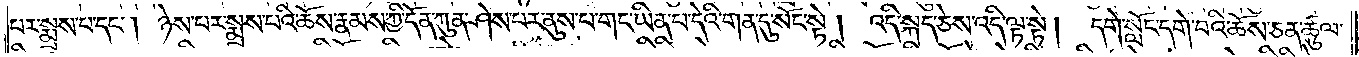པར་སྨྲས་པ་དང༌། ཉེས་པར་སྨྲས་པའི་ཆོས་རྣམས་ཀྱི་དོན་ཀུན་ཤེས་པར་ནུས་པ་གང་ཡིན་པ་དེའི་གན་དུ་སོང་སྟེ། འདི་སྐད་ཅེས་འདི་ལྟ་སྟེ། དགེ་སློང་དགེ་བའི་ཆོས་ཅན་ཚུལ་
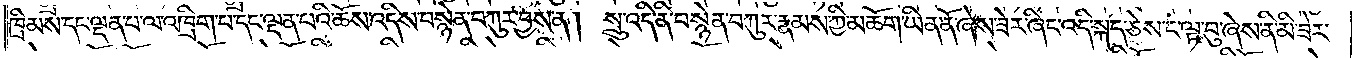ཁྲིམས་དང་ལྡན་པ་ལ་འཁྲིག་པ་དང་ལྡན་པའི་ཆོས་འདིས་བསྙེན་བཀུར་བྱས་ན། སྲུ་འདི་ནི་བསྙེན་བཀུར་རྣམས་ཀྱི་མཆོག་ཡིན་ནོ་ཞེས་ཟེར་ཞིང་འདི་སྐད་ཅེས་ང་ལྟ་བུ་ཞེས་ནི་མི་ཟེར་
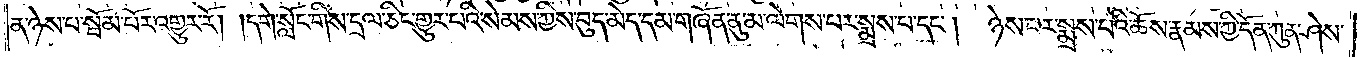ན་ཉེས་པ་སྦོམ་པོར་འགྱུར་རོ། །དགེ་སློང་གིས་དྲལ་ཅིང་གྱུར་པའི་སེམས་ཀྱིས་བུད་མེད་དམ་གཞོན་ནུ་མ་ལེགས་པར་སྨྲས་པ་དང༌།  ཉེས་པར་སྨྲས་པའི་ཆོས་རྣམས་ཀྱི་དོན་ཀུན་ཤེས་
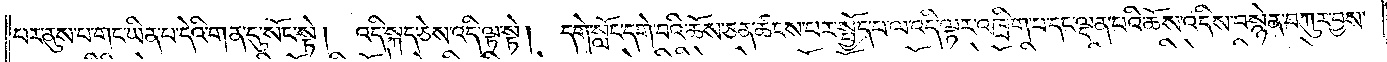པར་ནུས་པ་གང་ཡིན་པ་དེའི་གན་དུ་སོང་སྟེ།  འདི་སྐད་ཅེས་འདི་ལྟ་སྟེ། དགེ་སློང་དགེ་བའི་ཆོས་ཅན་ཚངས་པར་སྤྱོད་པ་ལ་འདི་ལྟར་འཁྲིག་པ་དང་ལྡན་པའི་ཆོས་འདིས་བསྙེན་བཀུར་བྱས་
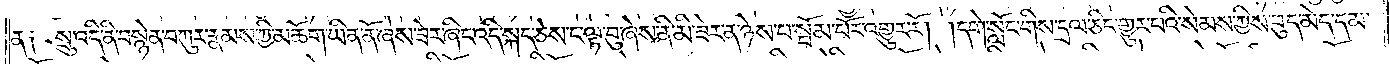ན༑ སྲུ་འདི་ནི་བསྙེན་བཀུར་རྣམས་ཀྱི་མཆོག་ཡིན་ནོ་ཞེས་ཟེར་ཞིང་འདི་སྐད་ཅེས་ང་ལྟ་བུ་ཞེས་ནི་མི་ཟེར་ན་ཉེས་པ་སྦོམ་པོར་འགྱུར་རོ། །དགེ་སློང་གིས་དྲལ་ཅིང་གྱུར་པའི་སེམས་ཀྱིས་བུད་མེད་དམ་
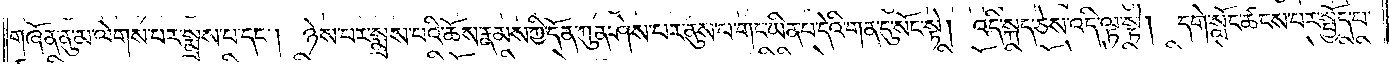གཞོན་ནུ་མ་ལེགས་པར་སྨྲས་པ་དང༌། ཉེས་པར་སྨྲས་པའི་ཆོས་རྣམས་ཀྱི་དོན་ཀུན་ཤེས་པར་ནུས་པ་གང་ཡིན་པ་དེའི་གན་དུ་སོང་སྟེ། འདི་སྐད་ཅེས་འདི་ལྟ་སྟེ། དགེ་སློང་ཚངས་པར་སྤྱོད་པ་
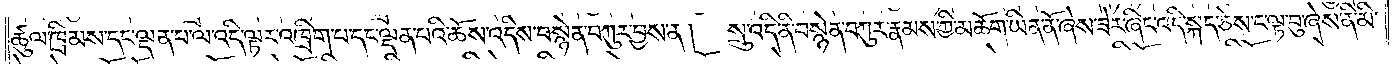ཚུལ་ཁྲིམས་དང་ལྡན་པ་ལ་འདི་ལྟར་འཁྲིག་པ་དང་ལྡན་པའི་ཆོས་འདིས་བསྙེན་བཀུར་བྱས་ན།  སྲུ་འདི་ནི་བསྙེན་བཀུར་རྣམས་ཀྱི་མཆོག་ཡིན་ནོ་ཞེས་ཟེར་ཞིང་འདི་སྐད་ཅེས་ང་ལྟ་བུ་ཞེས་ནི་མི་
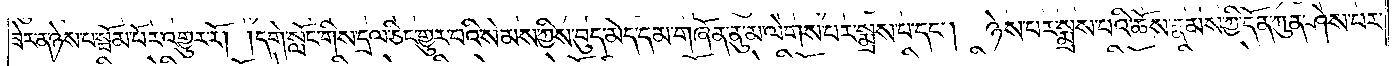ཟེར་ན་ཉེས་པ་སྦོམ་པོར་འགྱུར་རོ། །དགེ་སློང་གིས་དྲལ་ཅིང་གྱུར་པའི་སེམས་ཀྱིས་བུད་མེད་དམ་གཞོན་ནུ་མ་ལེགས་པར་སྨྲས་པ་དང༌། ཉེས་པར་སྨྲས་པའི་ཆོས་རྣམས་ཀྱི་དོན་ཀུན་ཤེས་པར་
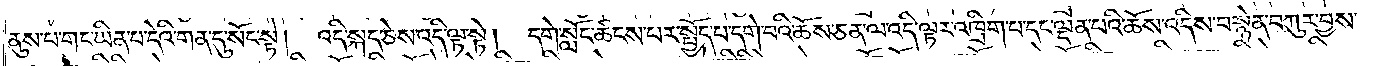ནུས་པ་གང་ཡིན་པ་དེའི་གན་དུ་སོང་སྟེ། འདི་སྐད་ཅེས་འདི་ལྟ་སྟེ། དགེ་སློང་ཚངས་པར་སྤྱོད་པ་དགེ་བའི་ཆོས་ཅན་ལ་འདི་ལྟར་འཁྲིག་པ་དང་ལྡན་པའི་ཆོས་འདིས་བསྙེན་བཀུར་བྱས་
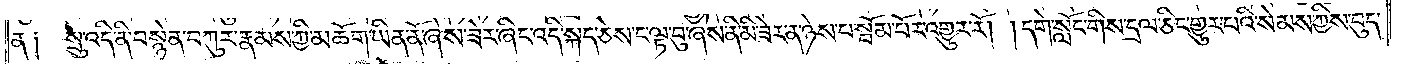ན༑  སྲུ་འདི་ནི་བསྙེན་བཀུར་རྣམས་ཀྱི་མཆོག་ཡིན་ནོ་ཞེས་ཟེར་ཞིང་འདི་སྐད་ཅེས་ང་ལྟ་བུ་ཞེས་ནི་མི་ཟེར་ན་ཉེས་པ་སྦོམ་པོར་འགྱུར་རོ། །དགེ་སློང་གིས་དྲལ་ཅིང་གྱུར་པའི་སེམས་ཀྱིས་བུད་
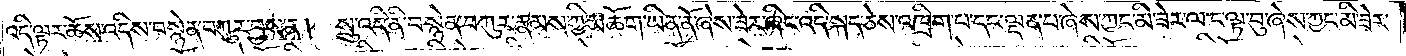འདི་ལྟར་ཆོས་འདིས་བསྙེན་བཀུར་བྱས་ན། སྲུ་འདི་ནི་བསྙེན་བཀུར་རྣམས་ཀྱི་མཆོག་ཡིན་ནོ་ཞེས་ཟེར་ཞིང་འདི་སྐད་ཅེས་འཁྲིག་པ་དང་ལྡན་པ་ཞེས་ཀྱང་མི་ཟེར་ལ་ང་ལྟ་བུ་ཞེས་ཀྱང་མི་ཟེར་
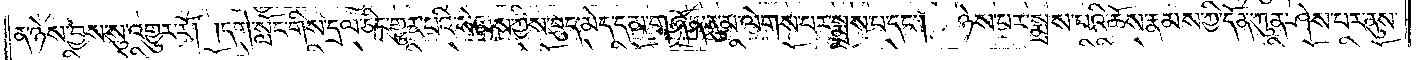ན་ཉེས་བྱས་སུ་འགྱུར་རོ། །དགེ་སློང་གིས་དྲལ་ཅིང་གྱུར་པའི་སེམས་ཀྱིས་བུད་མེད་དམ་གཞོན་ནུ་མ་ལེགས་པར་སྨྲས་པ་དང༌། ཉེས་པར་སྨྲས་པའི་ཆོས་རྣམས་ཀྱི་དོན་ཀུན་ཤེས་པར་ནུས་
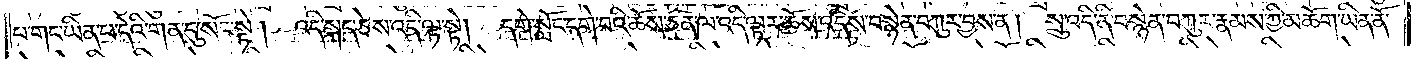པ་གང་ཡིན་པ་དེའི་གན་དུ་སོང་སྟེ། འདི་སྐད་ཅེས་འདི་ལྟ་སྟེ། དགེ་སློང་དགེ་བའི་ཆོས་ཅན་ལ་འདི་ལྟར་ཆོས་འདིས་བསྙེན་བཀུར་བྱས་ན། སྲུ་འདི་ནི་བསྙེན་བཀུར་རྣམས་ཀྱི་མཆོག་ཡིན་ནོ་
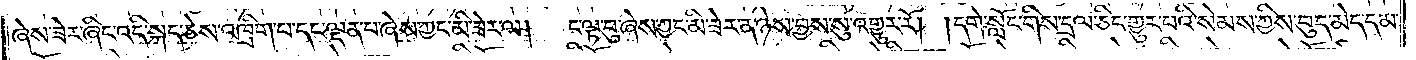ཞེས་ཟེར་ཞིང་འདི་སྐད་ཅེས་འཁྲིག་པ་དང་ལྡན་པ་ཞེས་ཀྱང་མི་ཟེར་ལ། ང་ལྟ་བུ་ཞེས་ཀྱང་མི་ཟེར་ན་ཉེས་བྱས་སུ་འགྱུར་རོ། །དགེ་སློང་གིས་དྲལ་ཅིང་གྱུར་པའི་སེམས་ཀྱིས་བུད་མེད་དམ་
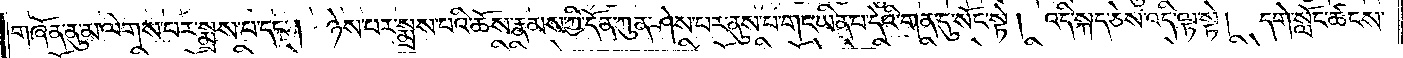གཞོན་ནུ་མ་ལེགས་པར་སྨྲས་པ་དང༌། ཉེས་པར་སྨྲས་པའི་ཆོས་རྣམས་ཀྱི་དོན་ཀུན་ཤེས་པར་ནུས་པ་གང་ཡིན་པ་དེའི་གན་དུ་སོང་སྟེ། འདི་སྐད་ཅེས་འདི་ལྟ་སྟེ། དགེ་སློང་ཚངས་
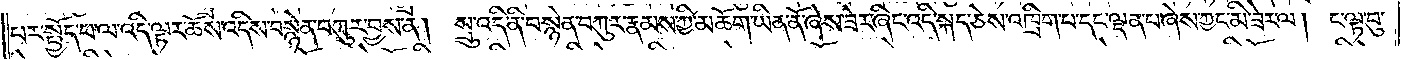པར་སྤྱོད་པ་ལ་འདི་ལྟར་ཆོས་འདིས་བསྙེན་བཀུར་བྱས་ན།  སྲུ་འདི་ནི་བསྙེན་བཀུར་རྣམས་ཀྱི་མཆོག་ཡིན་ནོ་ཞེས་ཟེར་ཞིང་འདི་སྐད་ཅེས་འཁྲིག་པ་དང་ལྡན་པ་ཞེས་ཀྱང་མི་ཟེར་ལ། ང་ལྟ་བུ་
